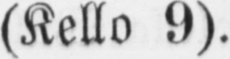(Kello 9).
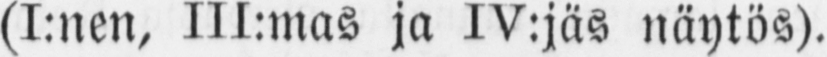(I:nen, III:mas ja IV:jäs näytös).
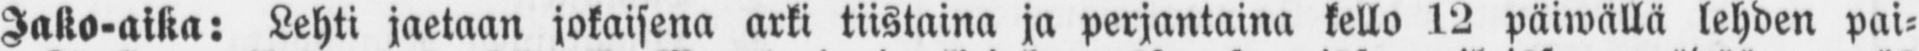Jako-aika: Lehti jaetaan jokaisena arki tiistaina ja perjantaina kello 12 päiwällä lehden pai-
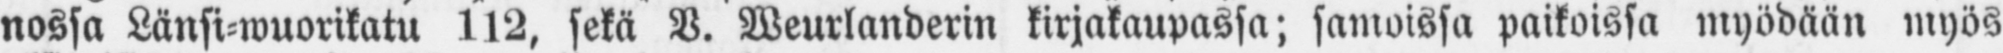nossa Länsi-wuorikatu 1l2, sekä V. Weurlanderin kirjakaupassa; samoissa paikoissa myödään myös
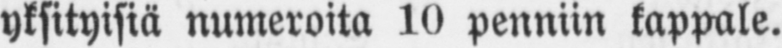yksityisiä numeroita 10 penniin kappale.
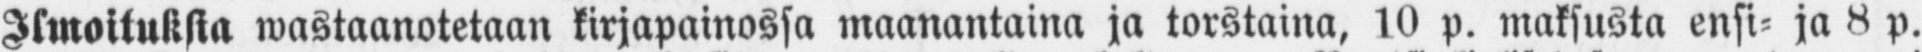Ilmoituksia wastaanotetaan kirjapainossa maanantaina ja torstaina, 10 p. maksusta ensi- ja 8 p.
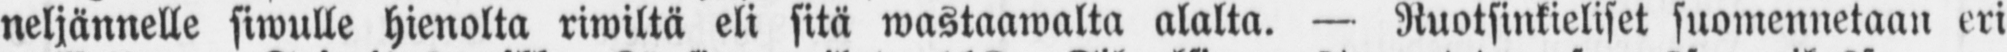neljännelle siwulle hienolta riwiltä eli sitä wastaawalta alalta. — Ruotsinkieliset suomennetaan eri
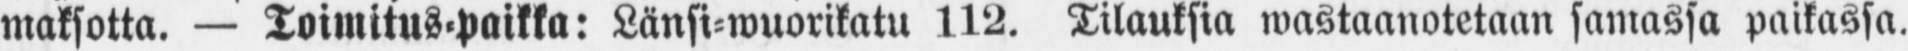maksatta. — Toimitus-paikka: Länsi-wuorikatu 112. Tilauksia wastaanotetaan samassa paikassa.
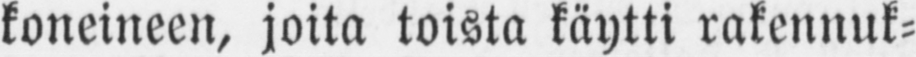koneineen, joita toista käytti rakennuk-
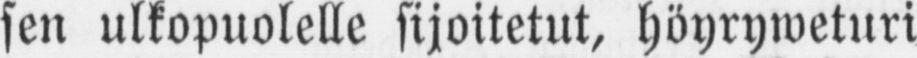sen ulkopuolelle sijoitetut, höyryweturi
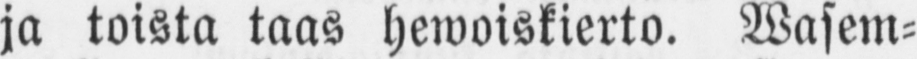ja toista taas hewoiskierto. Wasem-
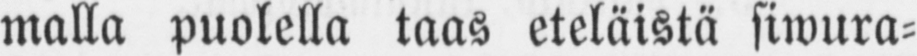malla puolella taas eteläistä siwura-
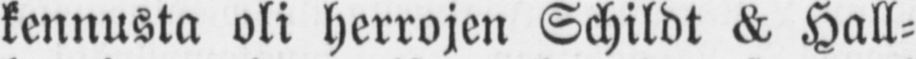kennusta oli herrojen Schildt & Hall-
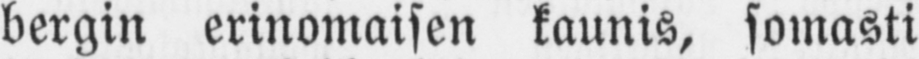bergin erinomaisen kaunis, somasti
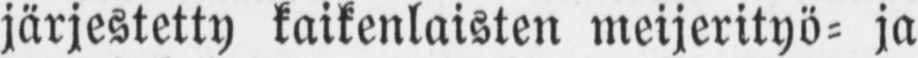järjestetty kaikenlaisten meijerityö- ja
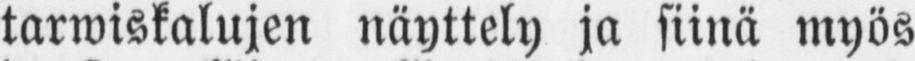tarwiskalujen näyttely ja siinä myös
